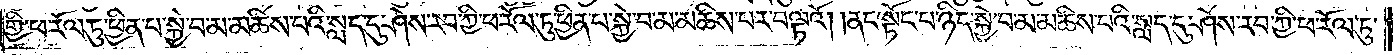གྱི་ཕ་རོལ་ཏུ་ཕྱིན་པ་སྐྱེ་བ་མ་མཆིས་པའི་སླད་དུ་ཤེས་རབ་ཀྱི་ཕ་རོལ་ཏུ་ཕྱིན་པ་སྐྱེ་བ་མ་མཆིས་པར་བལྟའོ། །ནང་སྟོང་པ་ཉིད་སྐྱེ་བ་མ་མཆིས་པའི་སླད་དུ་ཤེས་རབ་ཀྱི་ཕ་རོལ་ཏུ་
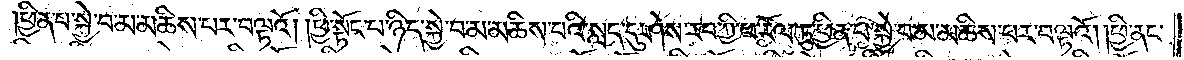ཕྱིན་པ་སྐྱེ་བ་མ་མཆིས་པར་བལྟའོ། །ཕྱི་སྟོང་པ་ཉིད་སྐྱེ་བ་མ་མཆིས་པའི་སླད་དུ་ཤེས་རབ་ཀྱི་ཕ་རོལ་ཏུ་ཕྱིན་པ་སྐྱེ་བ་མ་མཆིས་པར་བལྟའོ། །ཕྱི་ནང་
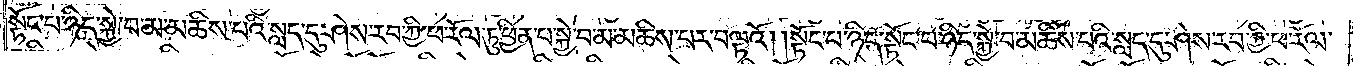སྟོང་པ་ཉིད་སྐྱེ་བ་མ་མཆིས་པའི་སླད་དུ་ཤེས་རབ་ཀྱི་ཕ་རོལ་ཏུ་ཕྱིན་པ་སྐྱེ་བ་མ་མཆིས་པར་བལྟའོ། །སྟོང་པ་ཉིད་སྟོང་པ་ཉིད་སྐྱེ་བ་མཆིས་པའི་སླད་དུ་ཤེས་རབ་ཀྱི་ཕ་རོལ་
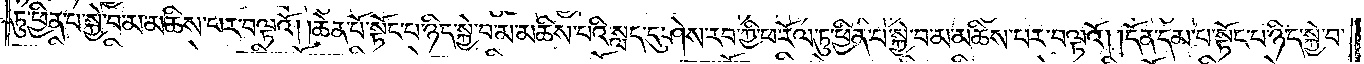ཏུ་ཕྱིན་པ་སྐྱེ་བ་མ་མཆིས་པར་བལྟའོ། །ཆེན་པོ་སྟོང་པ་ཉིད་སྐྱེ་བ་མ་མཆིས་པའི་སླད་དུ་ཤེས་རབ་ཀྱི་ཕ་རོལ་ཏུ་ཕྱིན་པ་སྐྱེ་བ་མ་མཆིས་པར་བལྟའོ། །དོན་དམ་པ་སྟོང་པ་ཉིད་སྐྱེ་བ་
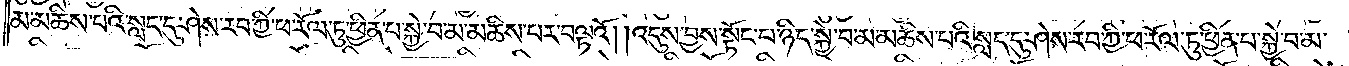མ་མཆིས་པའི་སླད་དུ་ཤེས་རབ་ཀྱི་ཕ་རོལ་ཏུ་ཕྱིན་པ་སྐྱེ་པ་མ་མཆིས་པར་བལྟའོ། །འདུས་བྱས་སྟོང་པ་ཉིད་སྐྱེ་བ་མ་མཆིས་པའི་སླད་དུ་ཤེས་རབ་ཀྱི་ཕ་རོལ་ཏུ་ཕྱིན་པ་སྐྱེ་བ་མ་
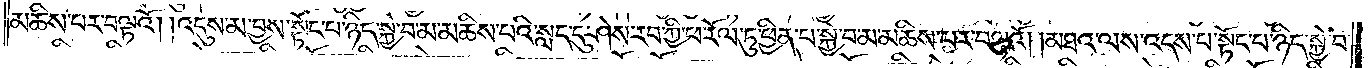མཆིས་པར་བལྟའོ། །འདུས་མ་བྱས་སྟོང་པ་ཉིད་སྐྱེ་བ་མ་མཆིས་པའི་སླད་དུ་ཤེས་རབ་ཀྱི་ཕ་རོལ་ཏུ་ཕྱིན་པ་སྐྱེ་བ་མ་མཆིས་པར་བལྟའོ། །མཐའ་ལས་འདས་པ་སྟོང་པ་ཉིད་སྐྱེ་བ་
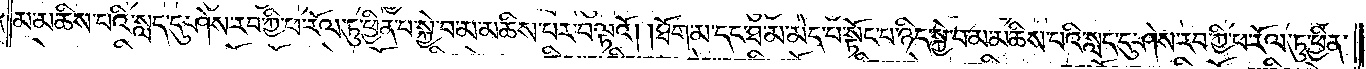མ་མཆིས་པའི་སླད་དུ་ཤེས་རབ་ཀྱི་ཕ་རོལ་ཏུ་ཕྱིན་པ་སྐྱེ་བ་མ་མཆིས་པར་བལྟའོ། །ཐོག་མ་དང་ཐ་མ་མེད་པ་སྟོང་པ་ཉིད་སྐྱེ་བ་མ་མཆིས་པའི་སླད་དུ་ཤེས་རབ་ཀྱི་ཕ་རོལ་ཏུ་ཕྱིན་
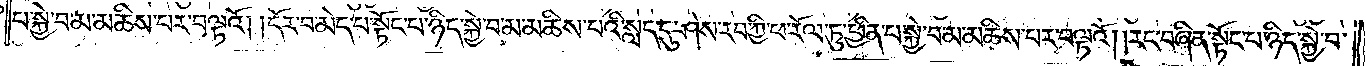པ་སྐྱེ་བ་མ་མཆིས་པར་བལྟའོ། །དོར་བ་མེད་པ་སྟོང་པ་ཉིད་སྐྱེ་བ་མ་མཆིས་པའི་སླད་དུ་ཤེས་རབ་ཀྱི་ཕ་རོལ་ཏུ་ཕྱིན་པ་སྐྱེ་བ་མ་མཆིས་པར་བལྟའོ། །རང་བཞིན་སྟོང་པ་ཉིད་སྐྱེ་བ་
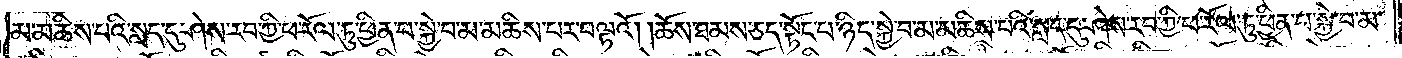མ་མཆིས་པའི་སླད་དུ་ཤེས་རབ་ཀྱི་ཕ་རོལ་ཏུ་ཕྱིན་པ་སྐྱེ་བ་མ་མཆིས་པར་བལྟའོ། །ཆོས་ཐམས་ཅད་སྟོང་པ་ཉིད་སྐྱེ་བ་མ་མཆིས་པའི་སླད་དུ་ཤེས་རབ་ཀྱི་ཕ་རོལ་ཏུ་ཕྱིན་པ་སྐྱེ་བ་མ་
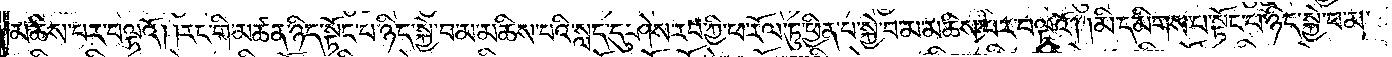མཆིས་པར་བལྟའོ། །རང་གི་མཚན་ཉིད་སྟོང་པ་ཉིད་སྐྱེ་བ་མ་མཆིས་པའི་སླད་དུ་ཤེས་རབ་ཀྱི་ཕ་རོལ་ཏུ་ཕྱིན་པ་སྐྱེ་བ་མ་མཆིས་པར་བལྟའོ། །མི་དམིགས་པ་སྟོང་པ་ཉིད་སྐྱེ་བ་མ་
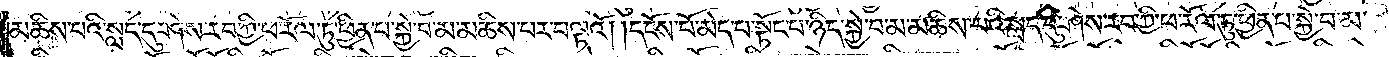མཆིས་པའི་སླད་དུ་ཤེས་རབ་ཀྱི་ཕ་རོལ་ཏུ་ཕྱིན་པ་སྐྱེ་བ་མ་མཆིས་པར་བལྟའོ། །དངོས་པོ་མེད་པ་སྟོང་པ་ཉིད་སྐྱེ་བ་མ་མཆིས་པའི་སླད་དུ་ཤེས་རབ་ཀྱི་ཕ་རོལ་ཏུ་ཕྱིན་པ་སྐྱེ་བ་མ་
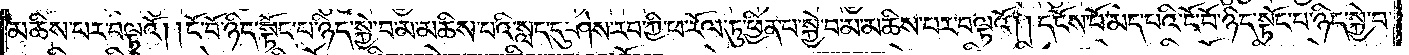མཆིས་པར་བལྟའོ། །ངོ་བོ་ཉིད་སྟོང་པ་ཉིད་སྐྱེ་བ་མ་མཆིས་པའི་སླད་དུ་ཤེས་རབ་ཀྱི་ཕ་རོལ་ཏུ་ཕྱིན་པ་སྐྱེ་བ་མ་མཆིས་པར་བལྟའོ། །དངོས་པོ་མེད་པའི་ངོ་བོ་ཉིད་སྟོང་པ་ཉིད་སྐྱེ་བ་
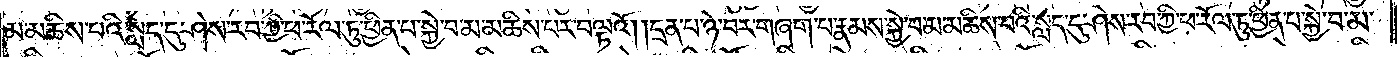མ་མཆིས་པའི་སླད་དུ་ཤེས་རབ་ཀྱི་ཕ་རོལ་ཏུ་ཕྱིན་པ་སྐྱེ་བ་མ་མཆིས་པར་བལྟའོ། །དྲན་པ་ཉེ་བར་གཞག་པ་རྣམས་སྐྱེ་བ་མ་མཆིས་པའི་སླད་དུ་ཤེས་རབ་ཀྱི་ཕ་རོལ་ཏུ་ཕྱིན་པ་སྐྱེ་བ་མ་
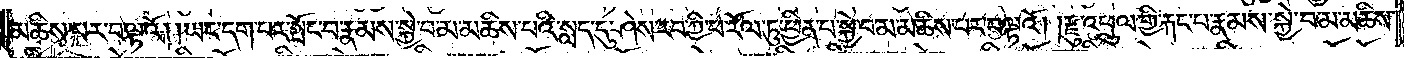མཆིས་པར་བལྟའོ། །ཡང་དག་པར་སྤོང་པ་རྣམས་སྐྱེ་བ་མ་མཆིས་པའི་སླད་དུ་ཤེས་རབ་ཀྱི་ཕ་རོལ་ཏུ་ཕྱིན་པ་སྐྱེ་བ་མ་མཆིས་པར་བལྟའོ། །རྫུ་འཕྲུལ་གྱི་རྐང་པ་རྣམས་སྐྱེ་བ་མ་མཆིས་
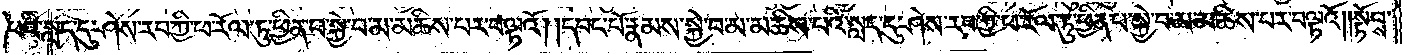པའི་སླད་དུ་ཤེས་རབ་ཀྱི་ཕ་རོལ་ཏུ་ཕྱིན་པ་སྐྱེ་བ་མ་མཆིས་པར་བལྟའོ། །དབང་པོ་རྣམས་སྐྱེ་བ་མ་མཆིས་པའི་སླད་དུ་ཤེས་རབ་ཀྱི་ཕ་རོལ་ཏུ་ཕྱིན་པ་སྐྱེ་བ་མ་མཆིས་པར་བལྟའོ། །སྟོབས་
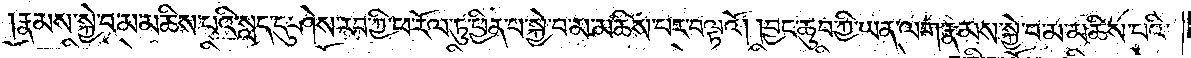རྣམས་སྐྱེ་བ་མ་མཆིས་པའི་སླད་དུ་ཤེས་རབ་ཀྱི་ཕ་རོལ་ཏུ་ཕྱིན་པ་སྐྱེ་བ་མ་མཆིས་པར་བལྟའོ། །བྱང་ཆུབ་ཀྱི་ཡན་ལག་རྣམས་སྐྱེ་བ་མ་མཆིས་པའི་
